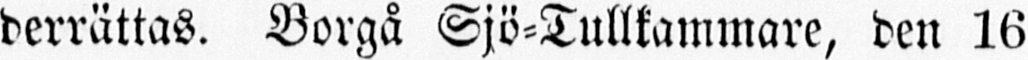derrättas. Borgå Sjö-Tullkammare, den 16
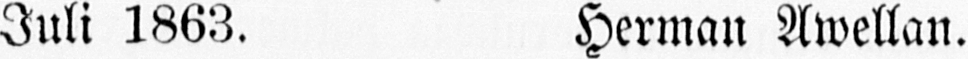Juli 1863. Herman Awellan.
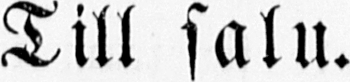Till salu.
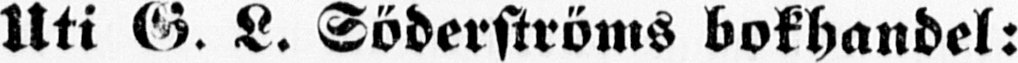Uti G. L. Söderströms bokhandel:
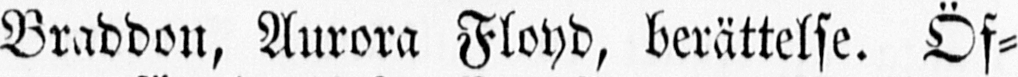Braddon, Aurora Floyd, berättelse. Öf-
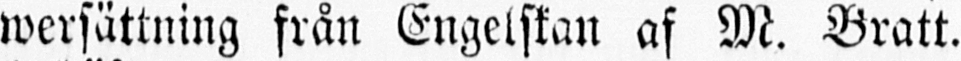wersättning från Engelskan af M. Bratt.
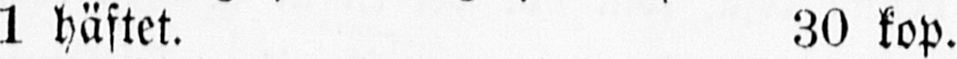1 häftet. 30 kop.
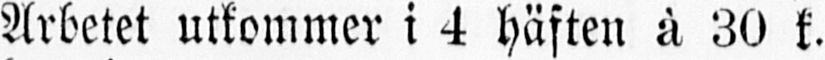Arbetet utkommer i 4 häften à 30 k.
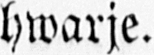hwarje.
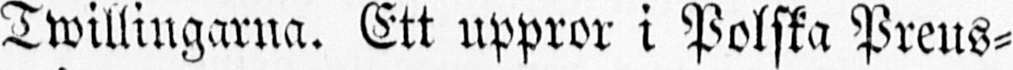Twillingarna. Ett uppror i Polska Preus-
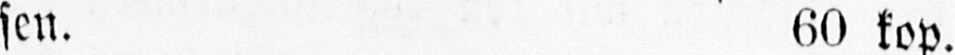sen. 60 kop.
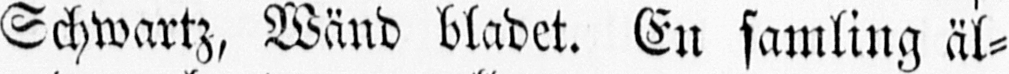Schwartz, Wänd bladet. En samling äl-
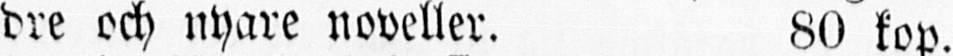dre och nyare noveller. 80 kop.
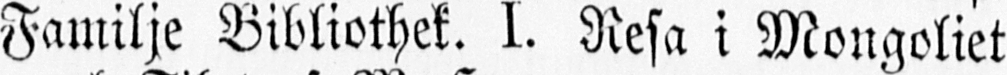Familje Bibliothek. 1. Resa i Mongoliet
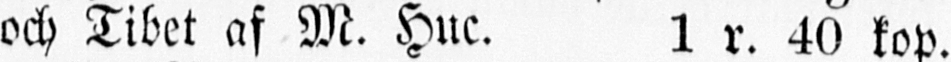och Tibet af M. Huc. 1 r. 40 kop.
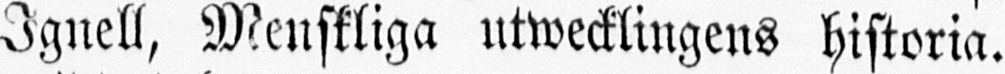Ignell, Menskliga utwecklingens historia.
